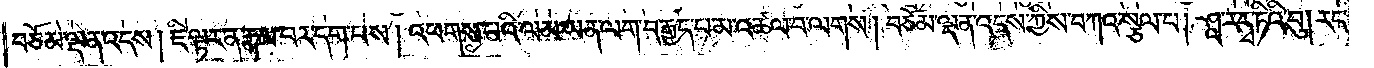བཅོམ་ལྡན་འདས། ཇི་ལྟར་ན་རྣམ་པར་དག་པས། འཕགས་པའི་ལམ་ཡན་ལག་བརྒྱད་པ་མ་འཚལ་བ་ལགས། བཅོམ་ལྡན་འདས་ཀྱིས་བཀའ་སྩལ་པ། ཤཱ་ར་དྭ་ཏིའི་བུ། རང་
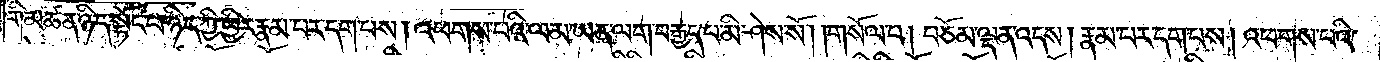གི་མཚན་ཉིད་སྟོང་པ་ཉིད་ཀྱི་ཕྱིར་རྣམ་པར་དག་པས། འཕགས་པའི་ལམ་ཡན་ལག་བརྒྱད་པ་མི་ཤེས་སོ། །གསོལ་པ། བཅོམ་ལྡན་འདས། རྣམ་པར་དག་པས། འཕགས་པའི་
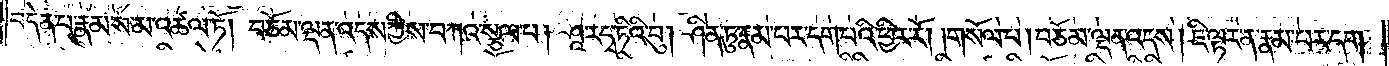བདེན་པ་རྣམས་མ་འཚལ་ཏོ། །བཅོམ་ལྡན་འདས་ཀྱིས་བཀའ་སྩལ་པ། ཤཱ་ར་དྭ་ཏིའི་བུ་ཤིན་ཏུ། རྣམ་པར་དག་པའི་ཕྱིར་རོ། །གསོལ་པ། བཅོམ་ལྡན་འདས། ཇི་ལྟར་ན་རྣམ་པར་དག་
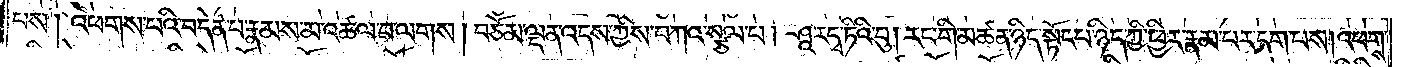པས། འཕགས་པའི་བདེན་པ་རྣམས་མ་འཚལ་བ་ལགས། བཅོམ་ལྡན་འདས་ཀྱིས་བཀའ་སྩལ་པ། ཤཱ་ར་དྭ་ཏིའི་བུ། རང་གི་མཚན་ཉིད་སྟོང་པ་ཉིད་ཀྱི་ཕྱིར་རྣམ་པར་དག་པས། འཕགས་
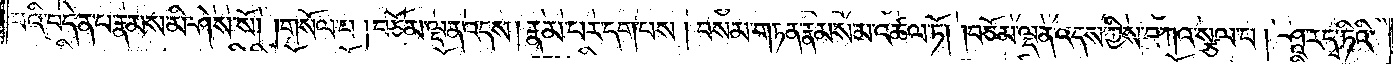པའི་བདེན་པ་རྣམས་མི་ཤེས་སོ། །གསོལ་པ། བཅོམ་ལྡན་འདས། རྣམ་པར་དག་པས། བསམ་གཏན་རྣམས་མ་འཚལ་ཏོ། །བཅོམ་ལྡན་འདས་ཀྱིས་བཀའ་སྩལ་པ། ཤཱ་ར་དྭ་ཏིའི་
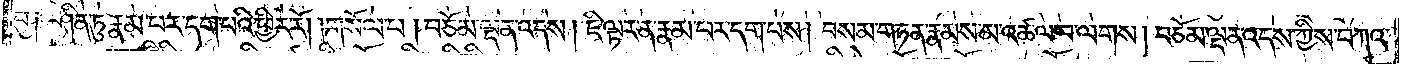བུ༑ ཤིན་ཏུ་རྣམ་པར་དག་པའི་ཕྱིར་རོ། །གསོལ་པ། བཅོམ་ལྡན་འདས། ཇི་ལྟར་ན་རྣམ་པར་དག་པས། བསམ་གཏན་རྣམས་མ་འཚལ་བ་ལགས། བཅོམ་ལྡན་འདས་ཀྱིས་བཀའ་
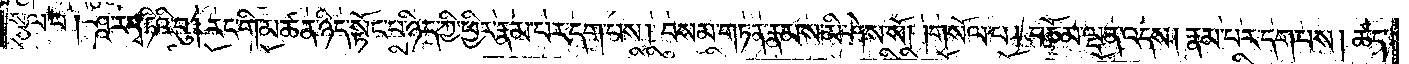སྩལ་པ། ཤཱ་ར་དྭ་ཏིའི་བུ། རང་གི་མཚན་ཉིད་སྟོང་པ་ཉིད་ཀྱི་ཕྱིར་རྣམ་པར་དག་པས། བསམ་གཏན་རྣམས་མི་ཤེས་སོ། །གསོལ་པ། བཅོམ་ལྡན་འདས། རྣམ་པར་དག་པས། ཚད་
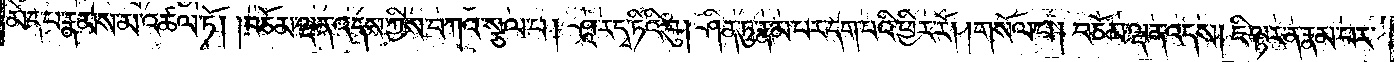མེད་པ་རྣམས་མ་འཚལ་ཏོ། །བཅོམ་ལྡན་འདས་ཀྱིས་བཀའ་སྩལ་པ། ཤཱ་ར་དྭ་ཏིའི་བུ། ཤིན་ཏུ་རྣམ་པར་དག་པའི་ཕྱིར་རོ། །གསོལ་པ། བཅོམ་ལྡན་འདས། ཇི་ལྟར་ན་རྣམ་པར་
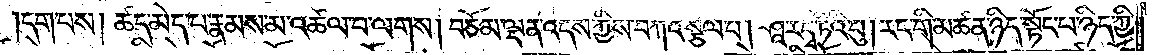དག་པས། ཚད་མེད་པ་རྣམས་མ་འཚལ་བ་ལགས། བཅོམ་ལྡན་འདས་ཀྱིས་བཀའ་སྩལ་པ། ཤཱ་ར་དྭ་ཏིའི་བུ། རང་གི་མཚན་ཉིད་སྟོང་པ་ཉིད་ཀྱི་
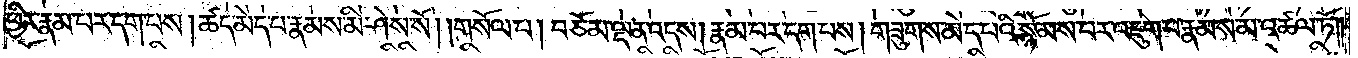ཕྱིར་རྣམ་པར་དག་པས། ཚད་མེད་པ་རྣམས་མི་ཤེས་སོ། །གསོལ་པ། བཅོམ་ལྡན་འདས། རྣམ་པར་དག་པས། གཟུགས་མེད་པའི་སྙོམས་པར་འཇུག་པ་རྣམས་མ་འཚལ་ཏོ། །
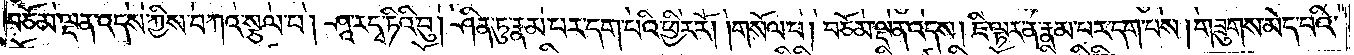བཅོམ་ལྡན་འདས་ཀྱིས་བཀའ་སྩལ་པ། ཤཱ་ར་དྭ་ཏིའི་བུ། ཤིན་ཏུ་རྣམ་པར་དག་པའི་ཕྱིར་རོ། །གསོལ་པ། བཅོམ་ལྡན་འདས། ཇི་ལྟར་ན་རྣམ་པར་དག་པས། གཟུགས་མེད་པའི་
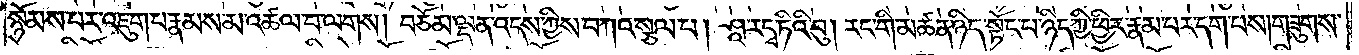སྙོམས་པར་འཇུག་པ་རྣམས་མ་འཚལ་བ་ལགས། བཅོམ་ལྡན་འདས་ཀྱིས་བཀའ་སྩལ་པ། ཤཱ་ར་དྭ་ཏིའི་བུ། རང་གི་མཚན་ཉིད་སྟོང་པ་ཉིད་ཀྱི་ཕྱིར་རྣམ་པར་དག་པས། གཟུགས་
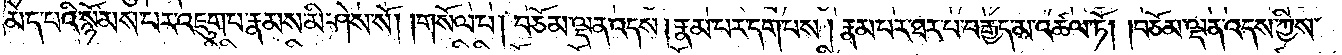མེད་པའི་སྙོམས་པར་འཇུག་པ་རྣམས་མི་ཤེས་སོ། །གསོལ་པ། བཅོམ་ལྡན་འདས། རྣམ་པར་དག་པས། རྣམ་པར་ཐར་པ་བརྒྱད་མ་འཚལ་ཏོ། །བཅོམ་ལྡན་འདས་ཀྱིས་
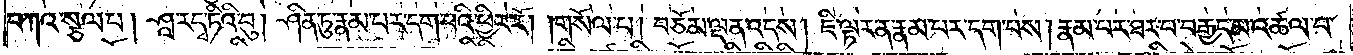བཀའ་སྩལ་པ། ཤཱ་ར་དྭ་ཏིའི་བུ། ཤིན་ཏུ་རྣམ་པར་དག་པའི་ཕྱིར་རོ། །གསོལ་པ། བཅོམ་ལྡན་འདས། ཇི་ལྟར་ན་རྣམ་པར་དག་པས། རྣམ་པར་ཐར་པ་བརྒྱད་མ་འཚལ་བ་
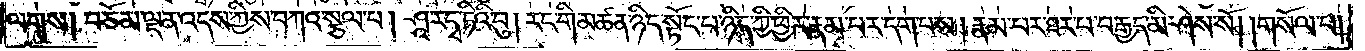ལགས། བཅོམ་ལྡན་འདས་ཀྱིས་བཀའ་སྩལ་པ། ཤཱ་ར་དྭ་ཏིའི་བུ། རང་གི་མཚན་ཉིད་སྟོང་པ་ཉིད་ཀྱི་ཕྱིར་རྣམ་པར་དག་པས། རྣམ་པར་ཐར་པ་བརྒྱད་མི་ཤེས་སོ། །གསོལ་པ།
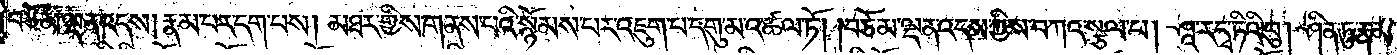བཅོམ་ལྡན་འདས། རྣམ་པར་དག་པས། མཐར་གྱིས་གནས་པའི་སྙོམས་པར་འཇུག་པ་དགུ་མ་འཚལ་ཏོ། །བཅོམ་ལྡན་འདས་ཀྱིས་བཀའ་སྩལ་པ། ཤཱ་ར་དྭ་ཏིའི་བུ། ཤིན་ཏུ་རྣམ་
